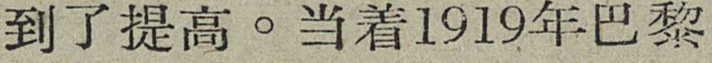到了提高。当着1919年巴黎
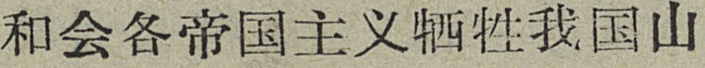和会各帝国主义牺牲我国山
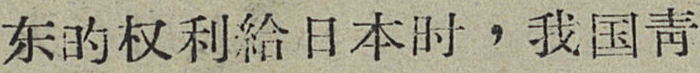东的权利給日本时，我国靑
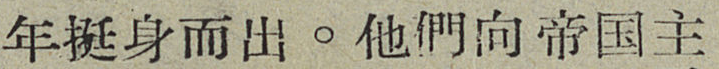年挺身而出。他們向帝国主
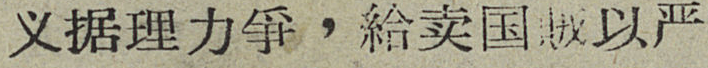义据理力爭，給卖国賊以严
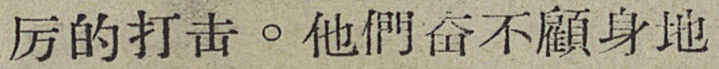厉的打击。他們奋不顧身地
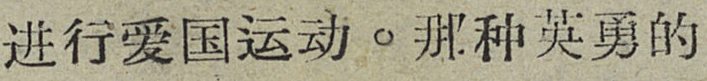进行爱国运动。那种英勇的
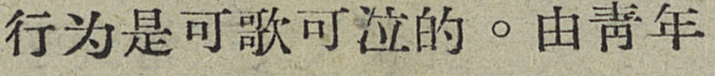行为是可歌可泣的。由靑年
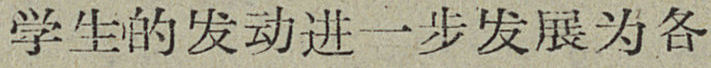学生的发动进一步发展为各
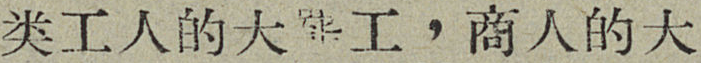类工人的大罷工，商人的大
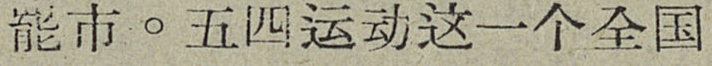罷市。五四运动这一个全国
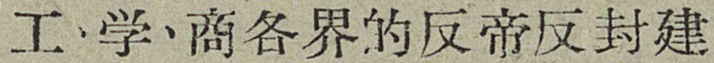工、学、商各界的反帝反封建
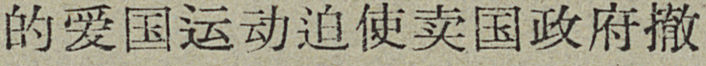的爱国运动迫使卖国政府撤
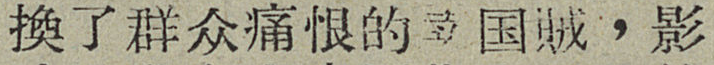換了群众痛恨的卖国賊，影
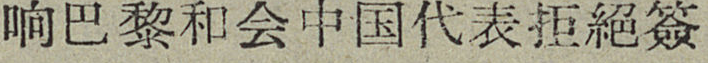响巴黎和会中国代表拒絕簽
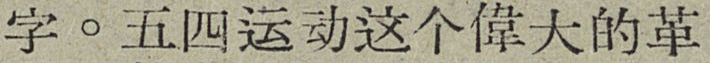字。五四运动这个偉大的革
